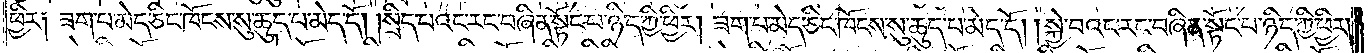ཕྱིར༑ ཟག་པ་མེད་ཅིང་ཁོངས་སུ་ཆུད་པ་མེད་དོ། །སྲིད་པའང་རང་བཞིན་སྟོང་པ་ཉིད་ཀྱི་ཕྱིར། ཟག་པ་མེད་ཅིང་ཁོངས་སུ་ཆུད་པ་མེད་དོ། །སྐྱེ་བའང་རང་བཞིན་སྟོང་པ་ཉིད་ཀྱི་ཕྱིར།
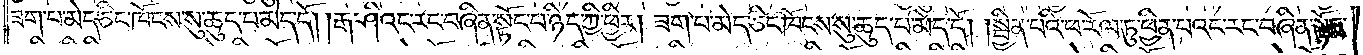ཟག་པ་མེད་ཅིང་ཁོངས་སུ་ཆུད་པ་མེད་དོ། །རྒ་ཤིའང་རང་བཞིན་སྟོང་པ་ཉིད་ཀྱི་ཕྱིར། ཟག་པ་མེད་ཅིང་ཁོངས་སུ་ཆུད་པ་མེད་དོ། །སྦྱིན་པའི་ཕ་རོལ་ཏུ་ཕྱིན་པའང་རང་བཞིན་སྟོང་
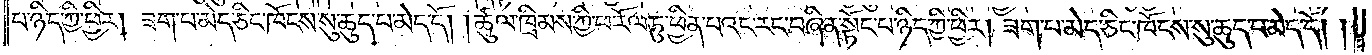པ་ཉིད་ཀྱི་ཕྱིར། ཟག་པ་མེད་ཅིང་ཁོངས་སུ་ཆུད་པ་མེད་དོ། །ཚུལ་ཁྲིམས་ཀྱི་ཕ་རོལ་ཏུ་ཕྱིན་པའང་རང་བཞིན་སྟོང་པ་ཉིད་ཀྱི་ཕྱིར། ཟག་པ་མེད་ཅིང་ཁོངས་སུ་ཆུད་པ་མེད་དོ། །
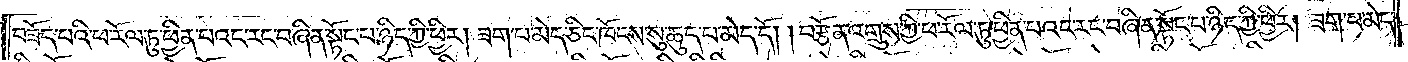བཟོད་པའི་ཕ་རོལ་ཏུ་ཕྱིན་པའང་རང་བཞིན་སྟོང་པ་ཉིད་ཀྱི་ཕྱིར། ཟག་པ་མེད་ཅིང་ཁོངས་སུ་ཆུད་པ་མེད་དོ། །བརྩོན་འགྲུས་ཀྱི་ཕ་རོལ་ཏུ་ཕྱིན་པའང་རང་བཞིན་སྟོང་པ་ཉིད་ཀྱི་ཕྱིར། ཟག་པ་མེད་
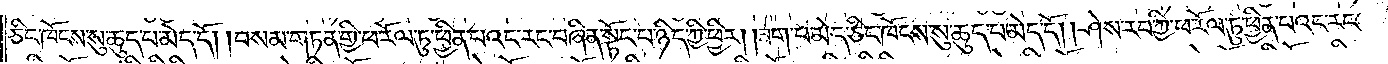ཅིང་ཁོངས་སུ་ཆུད་པ་མེད་དོ། །བསམ་གཏན་གྱི་ཕ་རོལ་ཏུ་ཕྱིན་པའང་རང་བཞིན་སྟོང་པ་ཉིད་ཀྱི་ཕྱིར། ཟག་པ་མེད་ཅིང་ཁོངས་སུ་ཆུད་པ་མེད་དོ། །ཤེས་རབ་ཀྱི་ཕ་རོལ་ཏུ་ཕྱིན་པའང་རང་
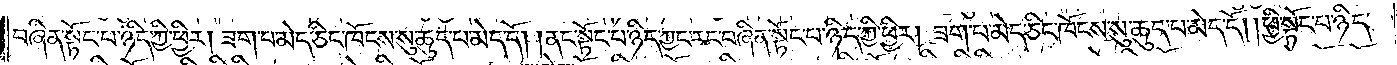བཞིན་སྟོང་པ་ཉིད་ཀྱི་ཕྱིར། ཟག་པ་མེད་ཅིང་ཁོངས་སུ་ཆུད་པ་མེད་དོ། །ནང་སྟོང་པ་ཉིད་ཀྱང་རང་བཞིན་སྟོང་པ་ཉིད་ཀྱི་ཕྱིར། ཟག་པ་མེད་ཅིང་ཁོངས་སུ་ཆུད་པ་མེད་དོ། །ཕྱི་སྟོང་པ་ཉིད་
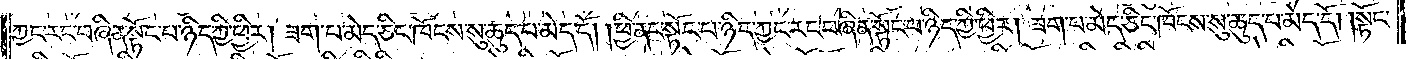ཀྱང་རང་བཞིན་སྟོང་པ་ཉིད་ཀྱི་ཕྱིར། ཟག་པ་མེད་ཅིང་ཁོངས་སུ་ཆུད་པ་མེད་དོ། །ཕྱི་ནང་སྟོང་པ་ཉིད་ཀྱང་རང་བཞིན་སྟོང་པ་ཉིད་ཀྱི་ཕྱིར། ཟག་པ་མེད་ཅིང་ཁོངས་སུ་ཆུད་པ་མེད་དོ། །སྟོང་
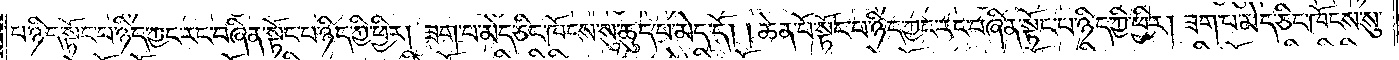པ་ཉིད་སྟོང་པ་ཉིད་ཀྱང་རང་བཞིན་སྟོང་པ་ཉིད་ཀྱི་ཕྱིར། ཟག་པ་མེད་ཅིང་ཁོངས་སུ་ཆུད་པ་མེད་དོ། །ཆེན་པོ་སྟོང་པ་ཉིད་ཀྱང་རང་བཞིན་སྟོང་པ་ཉིད་ཀྱི་ཕྱིར། ཟག་པ་མེད་ཅིང་ཁོངས་སུ་
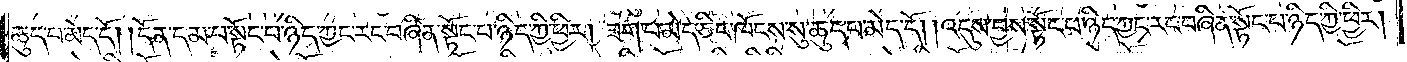ཆུད་པ་མེད་དོ། །དོན་དམ་པ་སྟོང་པ་ཉིད་ཀྱང་རང་བཞིན་སྟོང་པ་ཉིད་ཀྱི་ཕྱིར། ཟག་པ་མེད་ཅིང་ཁོངས་སུ་ཆུད་པ་མེད་དོ། །འདུས་བྱས་སྟོང་པ་ཉིད་ཀྱང་རང་བཞིན་སྟོང་པ་ཉིད་ཀྱི་ཕྱིར།
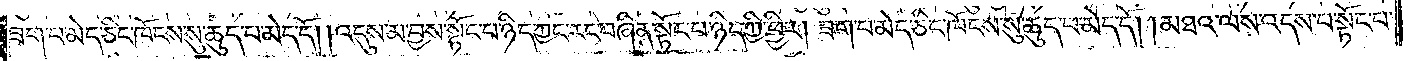ཟག་པ་མེད་ཅིང་ཁོངས་སུ་ཆུད་པ་མེད་དོ། །འདུས་མ་བྱས་སྟོང་པ་ཉིད་ཀྱང་རང་བཞིན་སྟོང་པ་ཉིད་ཀྱི་ཕྱིར། ཟག་པ་མེད་ཅིང་ཁོངས་སུ་ཆུད་པ་མེད་དོ། །མཐའ་ལས་འདས་པ་སྟོང་པ་
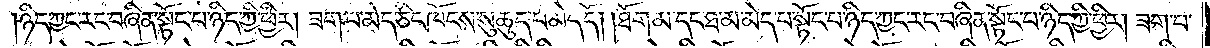ཉིད་ཀྱང་རང་བཞིན་སྟོང་པ་ཉིད་ཀྱི་ཕྱིར། ཟག་པ་མེད་ཅིང་ཁོངས་སུ་ཆུད་པ་མེད་དོ། །ཐོག་མ་དང་ཐ་མ་མེད་པ་སྟོང་པ་ཉིད་ཀྱང་རང་བཞིན་སྟོང་པ་ཉིད་ཀྱི་ཕྱིར། ཟག་པ་
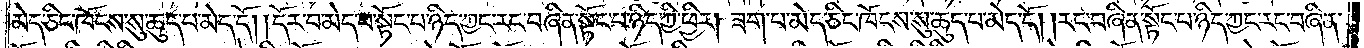མེད་ཅིང་ཁོངས་སུ་ཆུད་པ་མེད་དོ། །དོར་བ་མེད་པ་སྟོང་པ་ཉིད་ཀྱང་རང་བཞིན་སྟོང་པ་ཉིད་ཀྱི་ཕྱིར། ཟག་པ་མེད་ཅིང་ཁོངས་སུ་ཆུད་པ་མེད་དོ། །རང་བཞིན་སྟོང་པ་ཉིད་ཀྱང་རང་བཞིན་
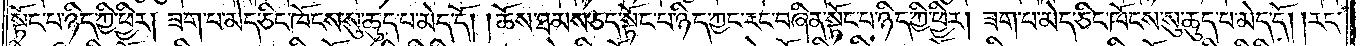སྟོང་པ་ཉིད་ཀྱི་ཕྱིར། ཟག་པ་མེད་ཅིང་ཁོངས་སུ་ཆུད་པ་མེད་དོ། །ཆོས་ཐམས་ཅད་སྟོང་པ་ཉིད་ཀྱང་རང་བཞིན་སྟོང་པ་ཉིད་ཀྱི་ཕྱིར། ཟག་པ་མེད་ཅིང་ཁོངས་སུ་ཆུད་པ་མེད་དོ། །རང་
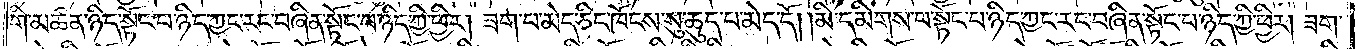གི་མཚན་ཉིད་སྟོང་པ་ཉིད་ཀྱང་རང་བཞིན་སྟོང་པ་ཉིད་ཀྱི་ཕྱིར། ཟག་པ་མེད་ཅིང་ཁོངས་སུ་ཆུད་པ་མེད་དོ། །མི་དམིགས་པ་སྟོང་པ་ཉིད་ཀྱང་རང་བཞིན་སྟོང་པ་ཉིད་ཀྱི་ཕྱིར། ཟག་
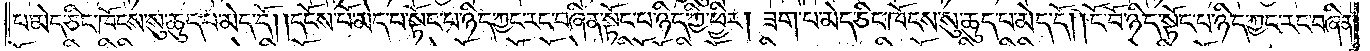པ་མེད་ཅིང་ཁོངས་སུ་ཆུད་པ་མེད་དོ། །དངོས་པོ་མེད་པ་སྟོང་པ་ཉིད་ཀྱང་རང་བཞིན་སྟོང་པ་ཉིད་ཀྱི་ཕྱིར། ཟག་པ་མེད་ཅིང་ཁོངས་སུ་ཆུད་པ་མེད་དོ། །ངོ་བོ་ཉིད་སྟོང་པ་ཉིད་ཀྱང་རང་བཞིན་
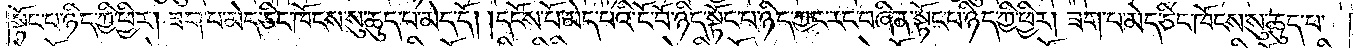སྟོང་པ་ཉིད་ཀྱི་ཕྱིར། ཟག་པ་མེད་ཅིང་ཁོངས་སུ་ཆུད་པ་མེད་དོ། །དངོས་པོ་མེད་པའི་ངོ་བོ་ཉིད་སྟོང་པ་ཉིད་ཀྱང་རང་བཞིན་སྟོང་པ་ཉིད་ཀྱི་ཕྱིར། ཟག་པ་མེད་ཅིང་ཁོངས་སུ་ཆུད་པ་
